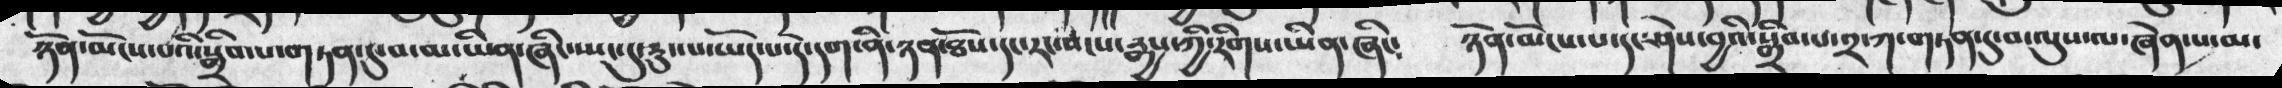ཉོན་མོངས་པའི་སྒྲིབ་པ་གཏན་དུ་བ་མ་ཡིན་ཞིང་ཡང་དུ་རུང་པ་ཡོད་པ་དེ་དག་ནི་ཉན་ཐོས་དང་རང་སངས་རྒྱས་ཀྱི་རིགས་ཡིན་ཞིང༴  ཉོན་མོངས་པ་དང་ཤེས་བྱའི་སྒྲིབ་པ་༢་ཀ་གཏན་དུ་བ་ལུས་ལ་ཞེན་པ་མ་
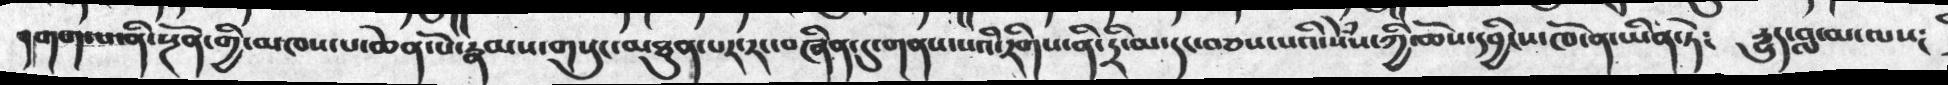དགག་པ་ནི་སྔོན་གྱི་མཁས་པ་ཆེན་པོ་རྣམས་གསུང་མཐུན་པར་རང་བཞིན་དུ་གནས་པའི་རིགས་ནི་དྲི་མ་དང་བཅས་པའི་སེཾས་ཀྱི་ཆོས་དབྱིངས་ཁོ་ན་ཡིན་ཏེ༴ དྱུད་བླ་མ་ལས༴
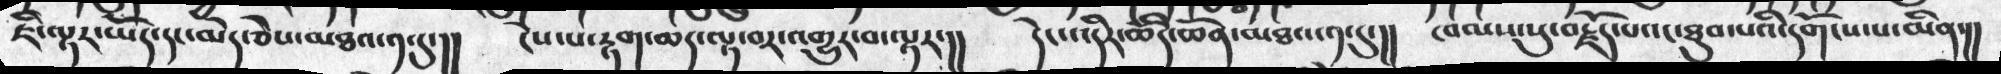ཇི་ལྟར་ཡོད་དང་མེད་ཅེས་མཐའ་༡་དུ་།།  ངེས་པ་རྟག་མད་ལྟ་བར་འགྱུར་བ་ལྟར་།།  དེང་འདིར་ཚོདི་ཆེན་མཐའ་༡་དུ་།།  ཁམས་སུ་བརྗོད་པའང་ཐུབ་པའི་དགོངས་པ་མིན་།།
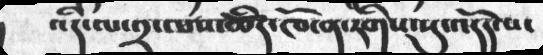འདི་ལ་༢་ལས་ཆོིད་ཁོ་ན་རིགས་སུ་འདོད་པ་
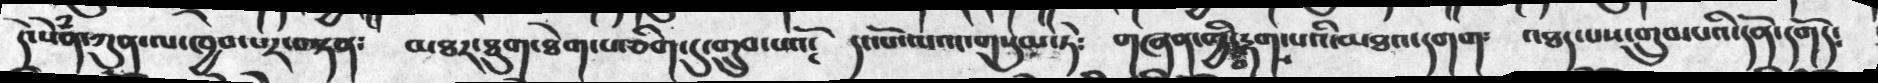དེ་སེཾན་ཀུན་ལ་ཁྱབ་པར་བསྟན༴  མཐར་ཐུག་ཐེག་པ་ཅིག་དུ་གྲུབ་པའོ༴   དང་པོ་ལའང་གསུམ་ཏེ༴  གཞན་གྱི་བརྟག་པའི་མཐའ་དགག༴  འཐད་པས་གྲུབ་པའི་དོན་དགོད༴
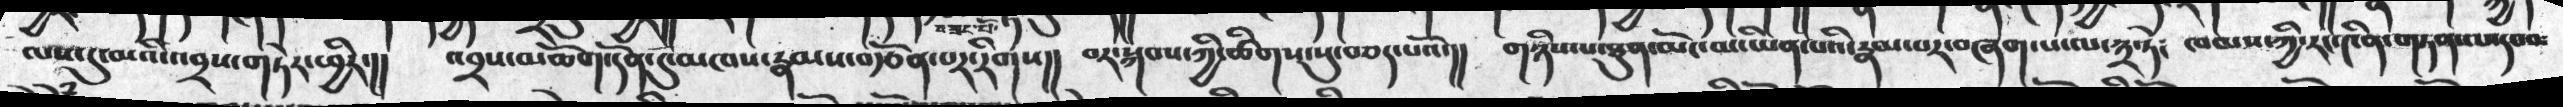ལས་དུ་མའི་འབྲས་གཏེར་ཕྱིར་།།  འབྲས་མཆོག་དོན་དུ་མཁས་རྣམས་བརྩོན་པར་རིགས།།  བར་སྐབས་ཀྱི་ཚིགས་སུ་བཅད་པའོ་།།  གཉིས་པ་ཐུན་མོང་མ་ཡིན་པའི་རྣམ་པར་བཞག་པ་ལ་༣་ཏེ༴  ཁམས་ཀྱི་རང་༤ིན་གཏན་ལ་དབབ༴
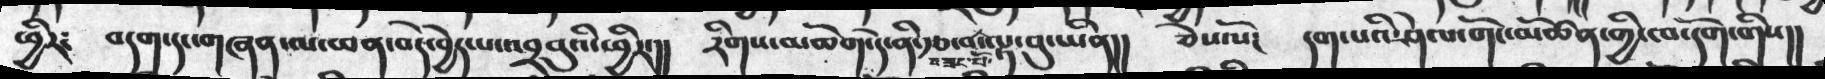ཕྱིར༴  བདག་དང་གཞན་ལ་ཕན་བདེ་བྱེད་པ་འབྲབུའི་ཕྱིར་།།  རིགས་མཆོག་དེ་ནི་རྩ་བ་ལྟ་བུ་ཡིན།། ཅེས་སོ།  དག་པའི་ཤེལ་གོང་མཚོན་གྱི་ཁ་དོག་གིས།།
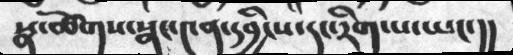སྣ་ཚོགས་སྣང་༤ན་དབྱིངས་དང་རིག་པ་ཡང་།།
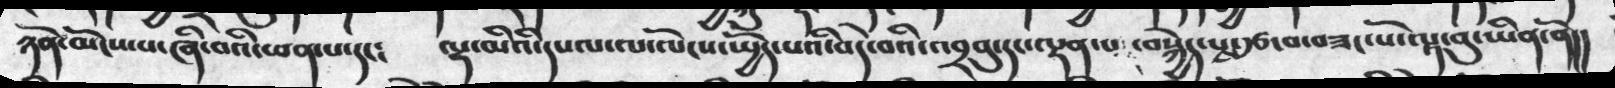ཉོན་མོངས་པ་ཞི་བའི་ཕན་པ་དང༴   ལྷ་མིའི་དཔལ་ལ་ལོངས་སྤྱོད་པའི་བདེ་བའི་འབྲབུ་དང་ལྡན་པ་བསྐྱེད་པ་རྩ་བ་བཟང་པོ་ལྟ་བུ་ཡིན་ནོ།།
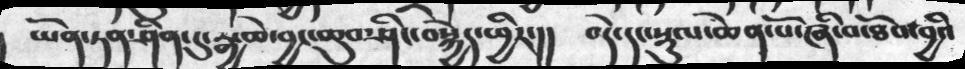ཡོན་ཏན་ཤིན་དུ་རྒྱ་ཆེ་བྱང་ཆུབ་ཤིང་བསྐྱེད་ཕྱིར་།།  བདེ་དང་སྡུལ་ཆེན་པོ་ཞི་བ་ཐོབ་བྱའི
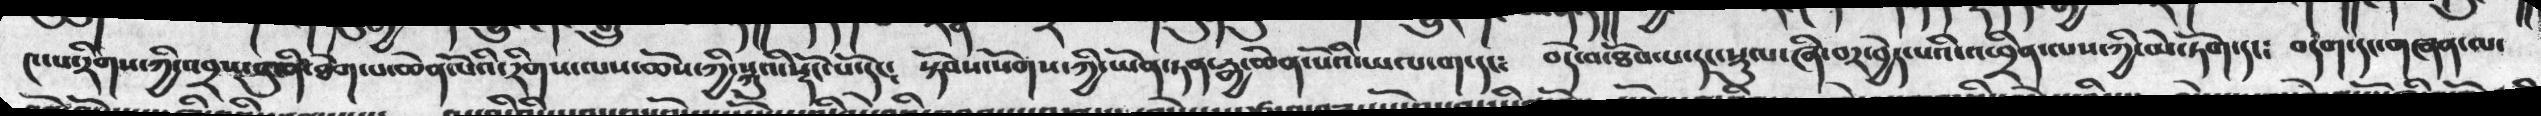༤་པ་རིགས་ཀྱི་འབྲས་བུ་ནི་ཐེག་པ་ཆེན་པོའི་རིགས་ལས་ཆོས་ཀྱི་སྐུའི་སྡོང་པོ་དང༴ སྟོབས་སོགས་ཀྱི་ཡོན་ཏན་རྒྱ་ཆེན་པོའི་ཡལ་ག་དང༴  བདེ་བ་ཐོབ་པ་དང་སྡུལ་ཞི་བར་བྱེད་པའི་འཕྲིན་ལས་ཀྱི་མེ་ཏོག་དང༴  བདག་དང་གཞན་ལ་
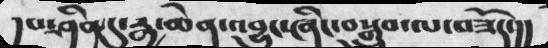དཔ་ཤིན་དུ་རྒྱ་ཆེན་འབྱུང་ཞིང་བསྒྲུབ་ལ་བཟོད་།།
